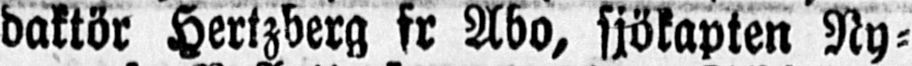daktör Hertzberg fr Abo, sjökapten Ny-
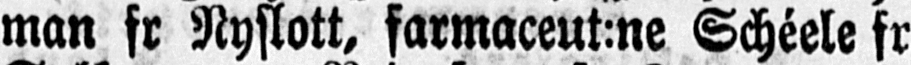man fr Nyslott, farmaceut:ne Schéele fr
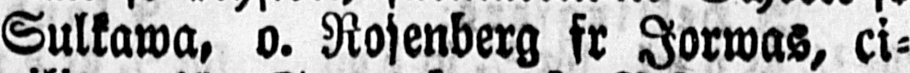Sulkawa, o. Rosenberg fr Jorwas, ci-
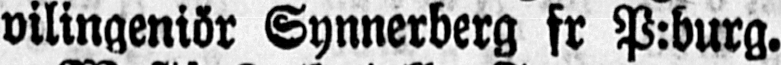vilingeniör Synnerberg fr P:burg.
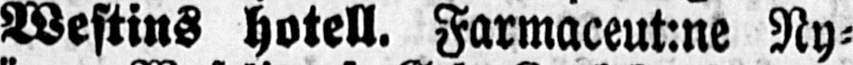Westins hotell. Farmaceut:ne Ny-
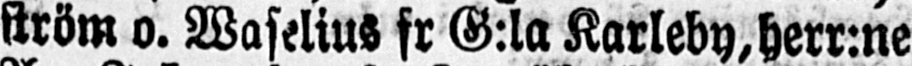ström o. Waselius fr G:la Karleby,herr:ne
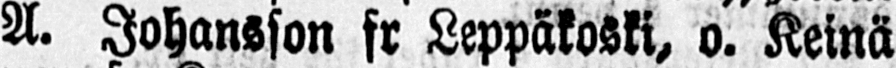A. Johansson fr Leppäkoski, o. Keinä-
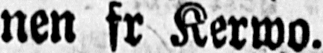nen fr Kerwo.
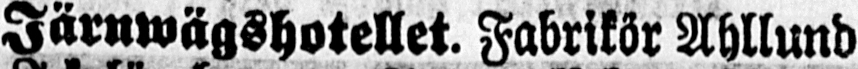Järnwägshotellet. Fabrikör Ahllund
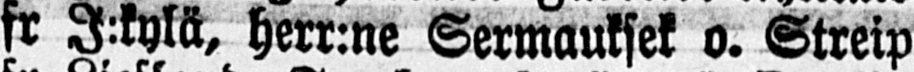fr J:kylä, herr:ne Sermauksek o. Streip
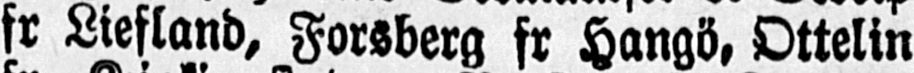fr Liefland, Forsberg fr Hangö, Ottelin
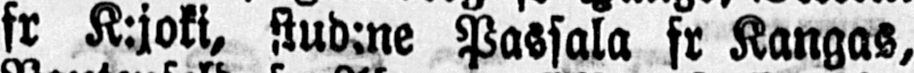fr K:joki, stud:ne Passala fr Kangas,
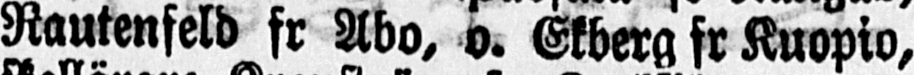Rautenfeld fr Abo, o. Ekberg fr Kuopio,
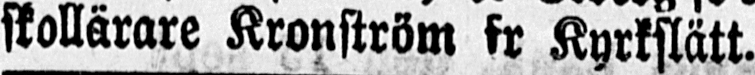skollärare Kronström fr Kyrkslätt.
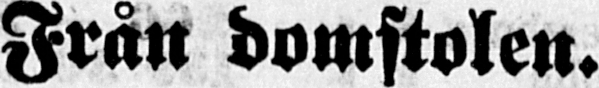Från domstolen.
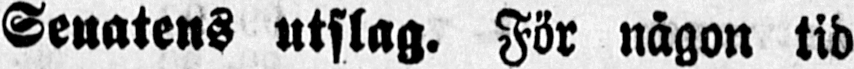Senatens utslag. För någon tid
